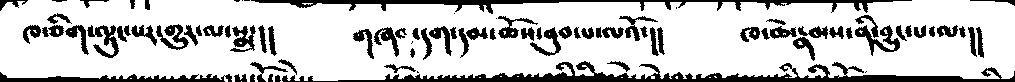ཁ་ཅིག་ལྟུང་པར་གྱུར་ལ་སྨྲ།།  གཞན་དག་དམ་ཆོས་ནུབ་པ་ལའོ་།།  ཁ་ཆེ་རྣམས་ནི་བྱུང་པ་ལ་།།
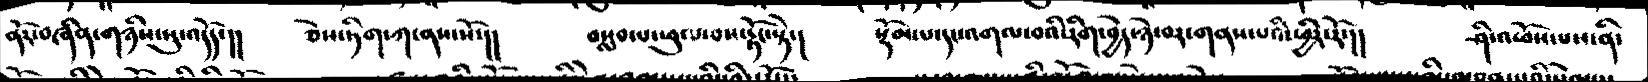ནོར་བཞིན་གཉིས་སུ་འདོད་།། ཅེས་ཏིག་ཀ་ནས་སོ་།།  བསླབ་པ་ཕུལ་བས་རྟོང་སྟེ་།  སྡོམ་པ་དང་འགལ་བའི་རིག་བྱེད་ཉེ་བར་གནས་པའི་ཕྱིར་རོ།།  ཤི་འཕོས་པས་ནི་
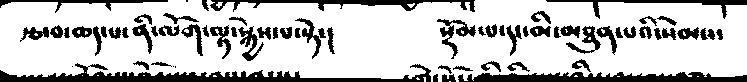རྩ་བ་ཆད་པ་ནི་ལོག་ལྟ་སྐྱེས་པ་སྟེ་།  སྡོམ་པ་དང་མི་མཐུན་པའི་སེམས་
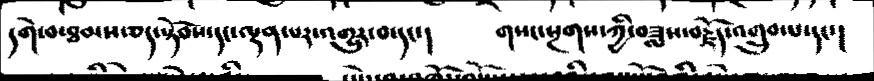དགེ་བ་ཐམས་ཅད་སྟོབས་དང་ལྡན་པར་འགྱུར་བ་དང་།   གསང་སྔགས་ཀྱི་བཟླས་བརྗོད་འགྱུར་པ་དང་།
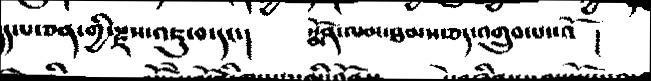།་པ་ཅན་གྱི་རྫས་འཇུག་བ་དང་།  སྨོན་ལམ་ཐབས་ཅན་འགྱུར་པ་་འོ  །
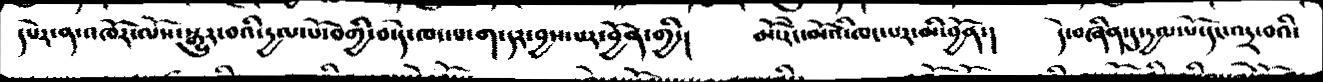དཔེར་ན་འཁོར་ལོས་སྒྱུར་བའི་དྱལ་པོ་བགྱི་བ་དེ་ཁང་པ་ག་དར་བྱས་པར་བྱོན་གྱི་།  མོ་རེང་མོའི་ཁང་པར་མི་བྱོན་།  དེ་བཞིན་དུ་རྱལ་པོ་དང་འདྲ་བའི་
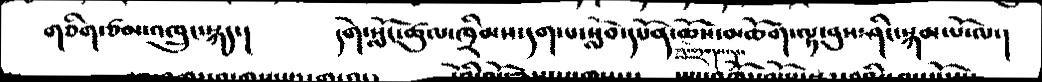གཅིག་ཙམ་འཁྲུང་སྐད་།  དགེ་སློང་ཚུལ་ཁྲིམས་དག་པ་སློབ་དཔོན་ཆོས་གྲགས་མཆོག་ལྟ་བུས་ཤིང་སྐམ་པོ་ལ་།
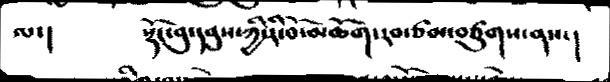ལ་།     སྡོང་བུ་དབུས་ཀྱི་རི་བོ་མཆོག་རབ་ཙམ་བཙུགས་ནས་།
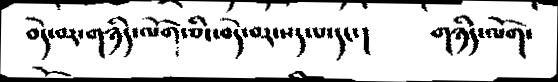བདེ་བར་གཉིད་ལོག་ཅིང་བདེ་བར་སད་༷པ་དང་།   གཉིད་ལོག་
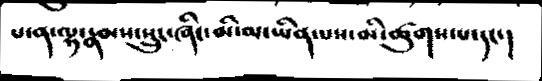པ་ན་ལྷ་རྣམས་སྲུང་ཞིང་མི་མ་ཡིན་པས་མི་ཚུགས་པ་དང་།
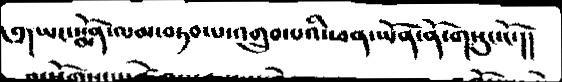༅།ཡང་སྨོན་ལམ་བཏབ་པ་འགྲུབ་པའི་ཕན་ཡོན་ནོ་གསུང་ངོ་།།
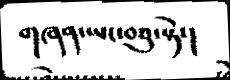གཞན་ཡང་བཅུ་སྟེ་།
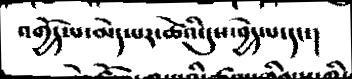འགྱོད་པ་མེད་པར་ཚེའི་དུས་བྱེད་པ་དང་།
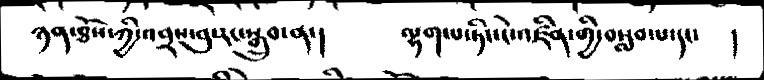ཉན་ཐོས་ཀྱི་འབྲས་བུ་རང་སྒྲུབ་ན་།    ལྷག་པ་ཏིང་ངེ་འཛིན་གྱི་བསླབ་པ་དང་    །
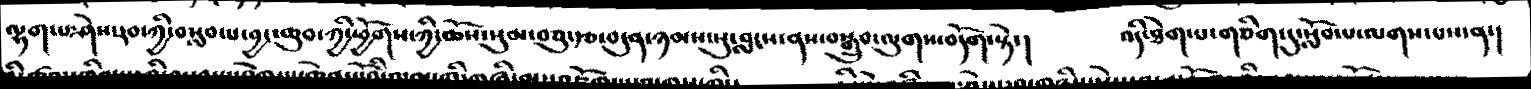ལྟག་པ་ཤེས་རབ་ཀྱི་བསླབ་པ་བྱང་ཆུབ་ཀྱི་ཕྱོགས་ཀྱི་ཆོས་སུམ་བཅུ་རྩ་བདུན་ཉམས་སུ་བླངས་ནས་བསྒྲུབ་ལུགས་བདོག་སྟེ་།  འདི་ཐེག་པ་གཅིག་དུ་སློབ་པ་ལགས་པས་ན་།
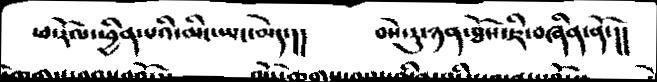ཕ་རོལ་ཕྱིན་པའི་མིང་ཡང་མེད་།།    བསེ་རུ་ཉན་ཐོས་ཇི་བཞིན་ནོ་།།
